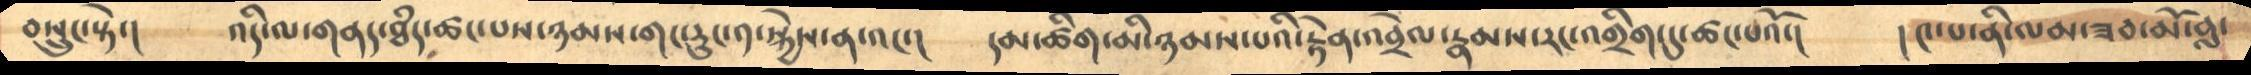བསྲུང་སྟེ་།   འདི་ལ་གནད་ཐཾད་ཚང་པས་ཉམས་གང་རུང་༡་སྐྱེས་ན་འང་།     དམ་ཚིག་མི་ཉམས་པའི་རྟེན་འབྲེལ་རྣམས་རང་འགྲིག་དུ་ཚང་པའོ་།   །༤་པ་ནི་ལམ་ཟབ་མོ་བླ་
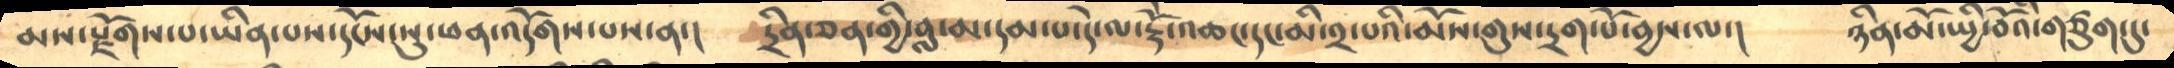མས་སྫོགས་པ་ཡིན་པས་དངོས་སུ་ཕན་འདོགས་པས་ན་།    དྲིན་ཅན་གྱི་བླ་མ་དམ་པ་དེ་ལ་རྡོེ་འཆང་དང་མི་༢་པའི་མོས་གུས་དྲག་པོ་བྱས་ལ་།     ཉིན་མོ་ཡྱི་བོའི་གཙུག་དུ་
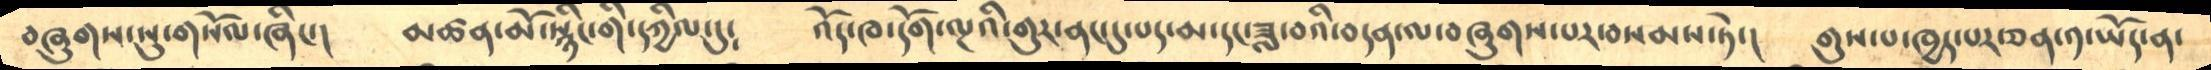བཞུགས་སུ་གསོལ་ཞིང་།    མཚན་མོ་སྙིང་གི་དཀྱིལ་དུ༴     འོད་ཁ་དོག་ལྔའི་གུར་ནང་དུ་པད་མ་དང་ཟླ་བའི་བདན་ལ་བཞུགས་པར་བསམས་ཏེ་།   གུས་པ་ཁྱད་པར་ཅན་༡་ཡོད་ན་
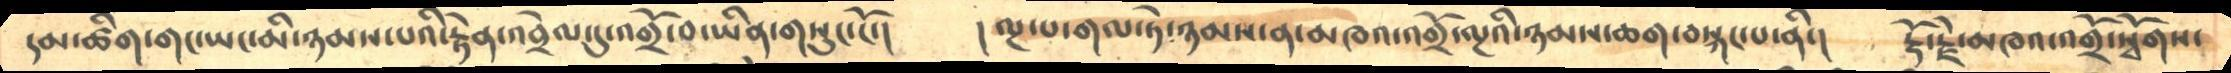དམ་ཚིག་གང་ཡང་མི་ཉམས་པའི་རྟེན་འབྲེལ་དུ་འགྲོ་བ་ཡིན་གསུང་ངོ་།    །ལྔ་པ་གལ་ཏེ་ཉམས་ན་མཁའ་འགྲོ་ལྔའི་ཉམས་ཆག་བསྐང་པ་ནི་།    རྡོ་རྗེ་མཁའ་འགྲོ་སྭོགས་
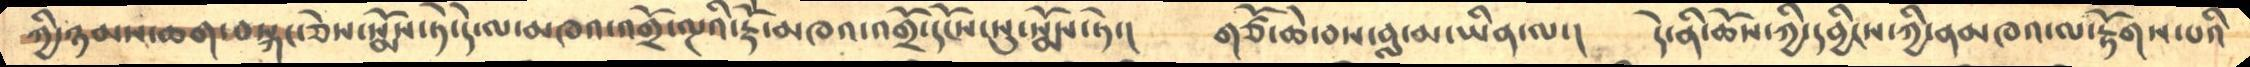ཀྱི་ཉམས་ཆག་བསྐང་ཅེས་སྨོས་ཏེ་དེ་ལ་མཁའ་འགྲོ་ལྔའི་རྡོེ་མཁའ་འགྲོ་དངོས་སུ་སྨོས་ཏེ་།      གཙོ་ཆེ་བས་བླ་མ་ཡིན་ལ་།    དེ་ནི་ཆོས་ཀྱི་དབྱིངས་ཀྱི་ནམཁའ་ལ་རྟོགས་པའི
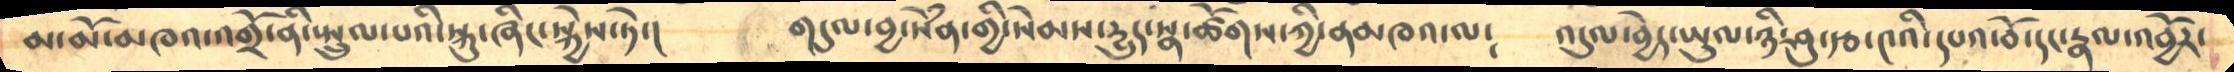མ་མོ་མཁའ་འགྲོ་ནི་སྤྲུལ་པའི་སྐུ་ཞིང་སྐྱེས་ཏེ་།     གདུལ་བྱ་སེཾན་གྱི་སེམས་དྱུད་སྣ་ཚོགས་ཀྱི་ནམཁའ་ལ༴    འདུལ་བྱེད་ཡུལ་ཉི་ཤུ་རྩ་༤འི་དཔའ་བོ་དང་རྣལ་འབྱོར་
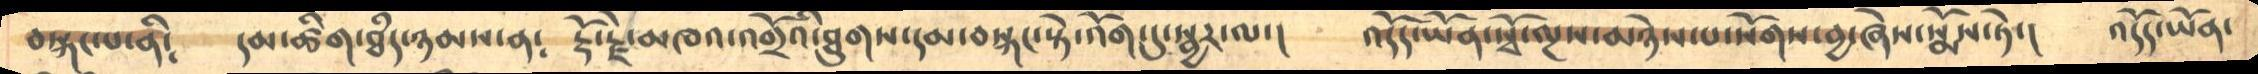བསྐང་པ་ནི༴   དམ་ཚིག་ཐཾད་ཉམས་ན༴  རྡོ་རྗེ་མཁའ་འགྲོའི་ཐུགས་དམ་བསྐང་སྟེ་འོག་དུ་སྦྱར་ལ་།    འདོད་ཡོན་སྭོ་ལྔས་མཉེས་པ་སོགས་བྱ་ཞེས་སྨོས་ཏེ་།    འདོད་ཡོན་
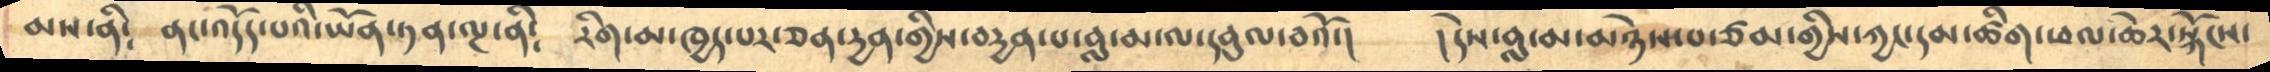མས་ནི༴   ནང་འདོད་པའི་ཡོན་ཏན་ལྔ་ནི༴   རིག་མ་ཁྱད་པར་ཅན་དྱན་གྱིས་བདྱན་པ་བླ་མ་ལ་དབུལ་བའོ་།    །དེས་བླ་མ་མཉེས་པ་ཙམ་གྱིས་ཀྱང་དམ་ཚིག་ཕལ་ཆེར་སྐོངས་
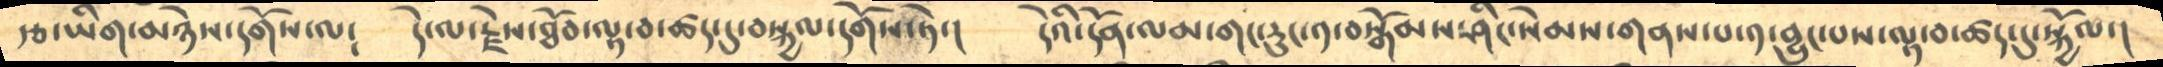རྩ་ཡིག་མཉེས་དགོས་ལ༴      དེ་ལ་རྗེས་ཐོབ་ལྟ་བ་ཚད་དུ་བསྐྱལ་དགོས་ཏེ་།     དེའི་དོན་ལམ་གང་རུང་༡་བསྒོམས་ཤིང་སེམས་གནས་པ་༡་བྱུང་པས་ལྟ་བ་ཚད་དུ་སྐྱོལ་།
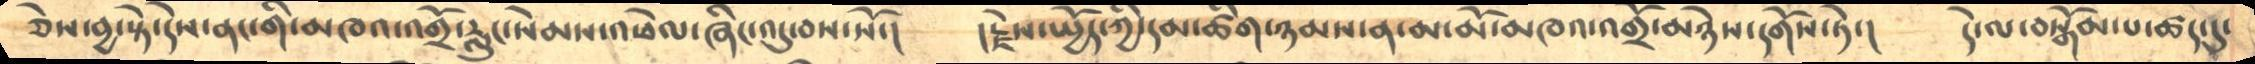ཅེས་བྱ་སྟེ་དེས་ནང་གི་མཁའ་འགྲོ་རླུང་སེམས་འཕེལ་ཞིང་འདུ་བས་སོ་།   །རྗེས་སྤྱོད་ཀྱི་དམ་ཚིག་ཉམས་ན་མ་མོ་མཁའ་འགྲོ་མཉེས་དགོས་ཏེ་།   དེ་ལ་བསྒོམ་པ་ཚད་དུ་
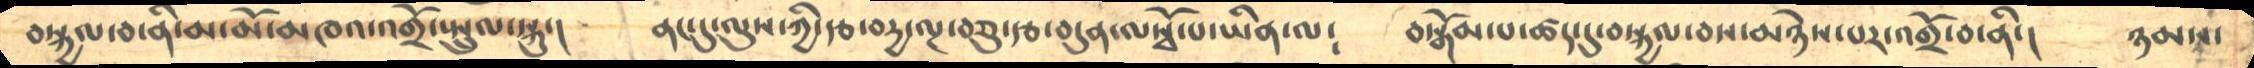བསྐྱལ་བ་ནི་མ་མོ་མཁའ་འགྲོ་སྤྲུལ་སྐུ་།    ནང་དུ་ལུས་ཀྱི་རྩ་བདྱ་ལྔ་བཅུ་རྩ་བདུན་ལསྭོ་པ་ཡིན་ལ༴   བསྒོམ་པ་ཚད་དུ་བསྐྱལ་བས་མཉེས་པར་འགྲོ་བ་ནི་།   ཉམས་
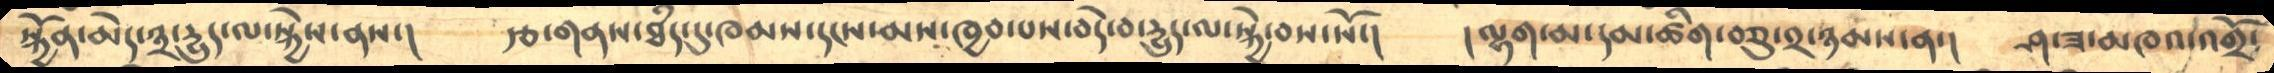སྐྱོན་མེད་༣་དྱུད་ལ་སྐྱེས་ནས་།    རྩ་གནས་ཐཾད་དུ་ཁམས་དངས་མས་ཁྱབ་པས་བདེ་བ་དྱུད་ལ་སྐྱེ་བས་སོ་།   །ལྷག་མ་དམ་ཚིག་བཅུ་༢་ཉམས་ན་།   ཤ་ཟ་མཁའ་འགྲོ་
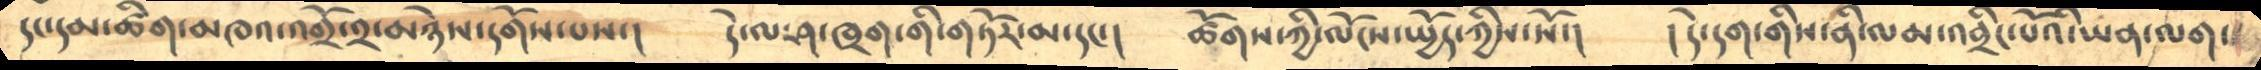དང་དམ་ཚིག་མཁའ་འགྲོ་༢་མཉེས་དགོས་པས་།   དེ་ལ་ཤ་ཁྲག་གི་གཏོར་མ་དང་།    ཚོགས་ཀྱི་ལོངས་སྤྱོད་ཀྱིས་སོ་།   ། དེ་དག་གིས་ནི་ལམ་འབྲིང་པོའི་ཡན་ལག་
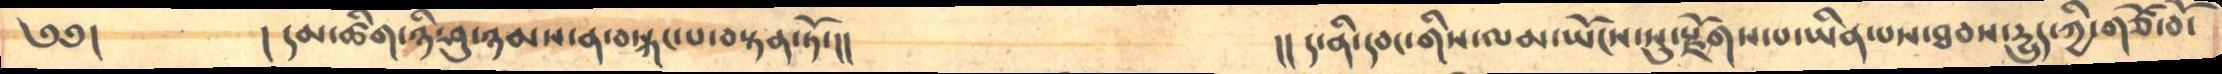༄༅།        ། དམ་ཚིག་ཉི་ཤུ་ཉམས་ན་བསྐང་པ་བསྟན་ཏོ་།།                     །། ད་ནི་དབང་གི་ལམ་ཡོངས་སུ་རྫོགས་པ་ཡིན་པས་ཐབས་དྱུད་ཀྱི་གཙོ་བོ་
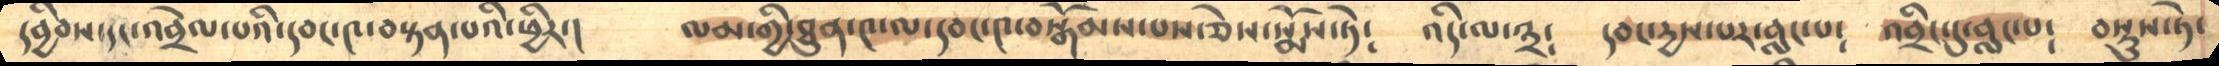དབྱིབས་དང་འབྲེལ་པའི་དབང་༤་བསྟན་པའི་ཕྱིར་།   ལམ་གྱི་ཐུན་༤་ལ་དབང་༤་བསྒོམས་པས་ཅེས་སྨོས་ཏེ༴   འདི་ལ་༣༴   དབང་དྱས་པར་བླང་པ༴  འབྲིང་དུ་བླང་པ༴   བསྡུས་ཏེ་
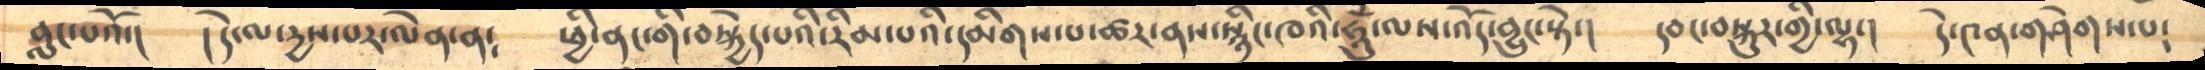བླང་པའོ་།  །དེ་ལ་དྱས་པར་ལེན་ན༴   ཕྱི་ནང་གི་བསྐྱེད་པའི་རིམ་པའི་དམིགས་པ་ཚར་ནས་སྙིང་ཁའི་ཧཱུཾ་ལས་འོད་བྱུང་སྟེ་།   དབང་བསྐུར་གྱི་ལྷ་།   དེ་༤ན་གཤེགས་པ༴
